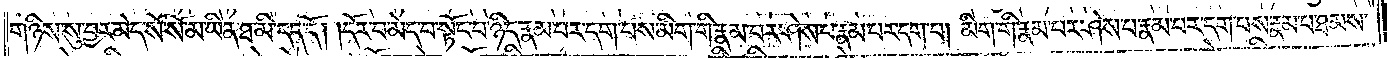གཉིས་སུ་བྱར་མེད་སོ་སོ་མ་ཡིན་ཐ་མི་དད་དོ། །དོར་བ་མེད་པ་སྟོང་པ་ཉིད་རྣམ་པར་དག་པས་མིག་གི་རྣམ་པར་ཤེས་པ་རྣམ་པར་དག་པ། མིག་གི་རྣམ་པར་ཤེས་པ་རྣམ་པར་དག་པས་རྣམ་པ་ཐམས་
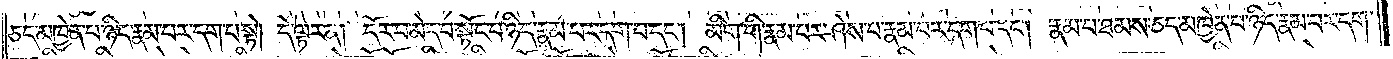ཅད་མཁྱེན་པ་ཉིད་རྣམ་པར་དག་པ་སྟེ། དེ་ལྟར་ན། དོར་བ་མེད་པ་སྟོང་པ་ཉིད་རྣམ་པར་དག་པ་དང༌། མིག་གི་རྣམ་པར་ཤེས་པ་རྣམ་པར་དག་པ་དང༌། རྣམ་པ་ཐམས་ཅད་མཁྱེན་པ་ཉིད་རྣམ་པར་དག་
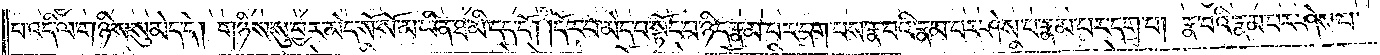པ་འདི་ལ་གཉིས་སུ་མེད་དེ། གཉིས་སུ་བྱར་མེད་སོ་སོ་མ་ཡིན་ཐ་མི་དད་དོ། །དོར་བ་མེད་པ་སྟོང་པ་ཉིད་རྣམ་པར་དག་པས་རྣ་བའི་རྣམ་པར་ཤེས་པ་རྣམ་པར་དག་པ། རྣ་བའི་རྣམ་པར་ཤེས་པ་
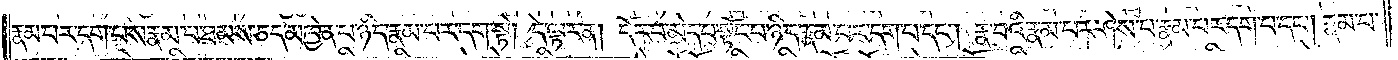རྣམ་པར་དག་པས་རྣམ་པ་ཐམས་ཅད་མཁྱེན་པ་ཉིད་རྣམ་པར་དག་པ་སྟེ། དེ་ལྟར་ན། དོར་བ་མེད་པ་སྟོང་པ་ཉིད་རྣམ་པར་དག་པ་དང༌། རྣ་བའི་རྣམ་པར་ཤེས་པ་རྣམ་པར་དག་པ་དང༌། རྣམ་པ་
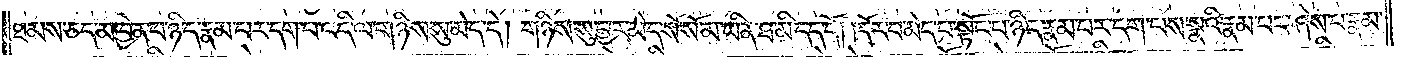ཐམས་ཅད་མཁྱེན་པ་ཉིད་རྣམ་པར་དག་པ་འདི་ལ་གཉིས་སུ་མེད་དེ། གཉིས་སུ་བྱར་མེད་སོ་སོ་མ་ཡིན་ཐ་མི་དད་དོ། །དོར་བ་མེད་པ་སྟོང་པ་ཉིད་རྣམ་པར་དག་པས་སྣའི་རྣམ་པར་ཤེས་པ་རྣམ་
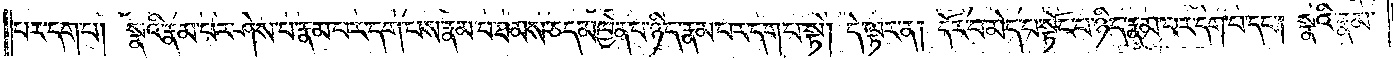པར་དག་པ། སྣའི་རྣམ་པར་ཤེས་པ་རྣམ་པར་དག་པས་རྣམ་པ་ཐམས་ཅད་མཁྱེན་པ་ཉིད་རྣམ་པར་དག་པ་སྟེ། དེ་ལྟར་ན། དོར་བ་མེད་པ་སྟོང་པ་ཉིད་རྣམ་པར་དག་པ་དང༌། སྣའི་རྣམ་
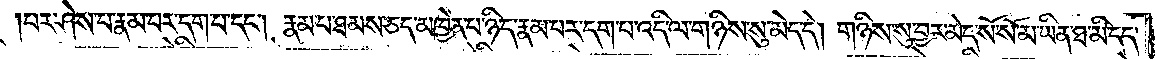པར་ཤེས་པ་རྣམ་པར་དག་པ་དང༌། རྣམ་པ་ཐམས་ཅད་མཁྱེན་པ་ཉིད་རྣམ་པར་དག་པ་འདི་ལ་གཉིས་སུ་མེད་དེ། གཉིས་སུ་བྱར་མེད་སོ་སོ་མ་ཡིན་ཐ་མི་དད་
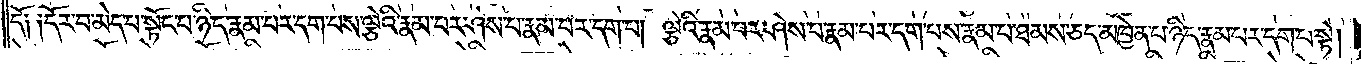དོ༑ ༑དོར་བ་མེད་པ་སྟོང་པ་ཉིད་རྣམ་པར་དག་པས་ལྕེའི་རྣམ་པར་ཤེས་པ་རྣམ་པར་དག་པ། ལྕེའི་རྣམ་པར་ཤེས་པ་རྣམ་པར་དག་པས་རྣམ་པ་ཐམས་ཅད་མཁྱེན་པ་ཉིད་རྣམ་པར་དག་པ་སྟེ།
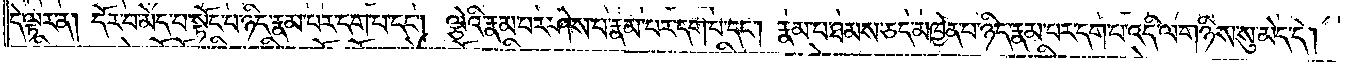དེ་ལྟར་ན། དོར་བ་མེད་པ་སྟོང་པ་ཉིད་རྣམ་པར་དག་པ་དང༌། ལྕེའི་རྣམ་པར་ཤེས་པ་རྣམ་པར་དག་པ་དང༌། རྣམ་པ་ཐམས་ཅད་མཁྱེན་པ་ཉིད་རྣམ་པར་དག་པ་འདི་ལ་གཉིས་སུ་མེད་དེ།
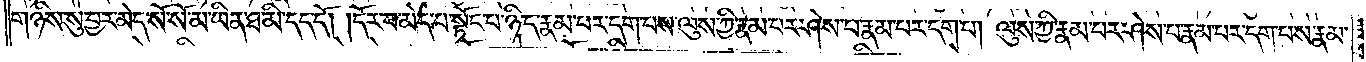གཉིས་སུ་བྱར་མེད་སོ་སོ་མ་ཡིན་ཐ་མི་དད་དོ། །དོར་བ་མེད་པ་སྟོང་པ་ཉིད་རྣམ་པར་དག་པས་ལུས་ཀྱི་རྣམ་པར་ཤེས་པ་རྣམ་པར་དག་པ། ལུས་ཀྱི་རྣམ་པར་ཤེས་པ་རྣམ་པར་དག་པས་རྣམ་
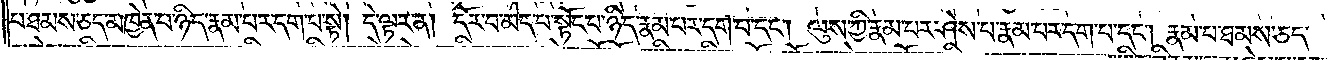པ་ཐམས་ཅད་མཁྱེན་པ་ཉིད་རྣམ་པར་དག་པ་སྟེ། དེ་ལྟར་ན། དོར་བ་མེད་པ་སྟོང་པ་ཉིད་རྣམ་པར་དག་པ་དང༌། ལུས་ཀྱི་རྣམ་པར་ཤེས་པ་རྣམ་པར་དག་པ་དང༌། རྣམ་པ་ཐམས་ཅད་
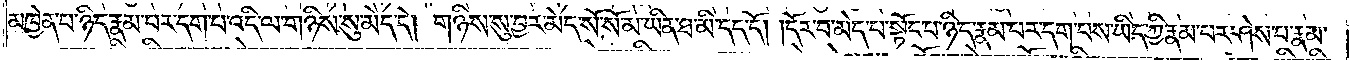མཁྱེན་པ་ཉིད་རྣམ་པར་དག་པ་འདི་ལ་གཉིས་སུ་མེད་དེ། གཉིས་སུ་བྱར་མེད་སོ་སོ་མ་ཡིན་ཐ་མི་དད་དོ། །དོར་བ་མེད་པ་སྟོང་པ་ཉིད་རྣམ་པར་དག་པས་ཡིད་ཀྱི་རྣམ་པར་ཤེས་པ་རྣམ་
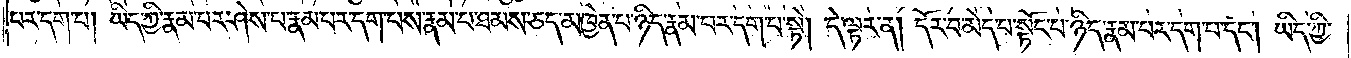པར་དག་པ། ཡིད་ཀྱི་རྣམ་པར་ཤེས་པ་རྣམ་པར་དག་པས་རྣམ་པ་ཐམས་ཅད་མཁྱེན་པ་ཉིད་རྣམ་པར་དག་པ་སྟེ། དེ་ལྟར་ན། དོར་བ་མེད་པ་སྟོང་པ་ཉིད་རྣམ་པར་དག་པ་དང༌། ཡིད་ཀྱི་
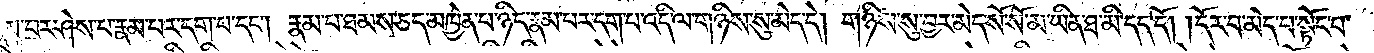རྣམ་པར་ཤེས་པ་རྣམ་པར་དག་པ་དང༌། རྣམ་པ་ཐམས་ཅད་མཁྱེན་པ་ཉིད་རྣམ་པར་དག་པ་འདི་ལ་གཉིས་སུ་མེད་དེ། གཉིས་སུ་བྱར་མེད་སོ་སོ་མ་ཡིན་ཐ་མི་དད་དོ། །དོར་བ་མེད་པ་སྟོང་པ་
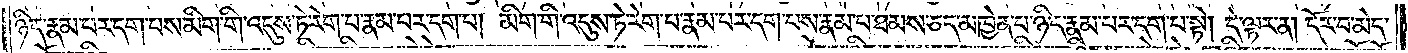ཉིད་རྣམ་པར་དག་པས་མིག་གི་འདུས་ཏེ་རེག་པ་རྣམ་པར་དག་པ། མིག་གི་འདུས་ཏེ་རེག་པ་རྣམ་པར་དག་པས་རྣམ་པ་ཐམས་ཅད་མཁྱེན་པ་ཉིད་རྣམ་པར་དག་པ་སྟེ། དེ་ལྟར་ན། དོར་བ་མེད་
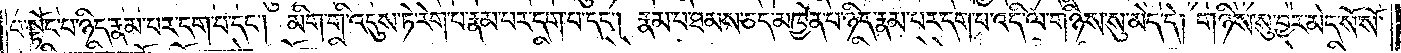པ་སྟོང་པ་ཉིད་རྣམ་པར་དག་པ་དང༌། མིག་གི་འདུས་ཏེ་རེག་པ་རྣམ་པར་དག་པ་དང༌། རྣམ་པ་ཐམས་ཅད་མཁྱེན་པ་ཉིད་རྣམ་པར་དག་པ་འདི་ལ་གཉིས་སུ་མེད་དེ། གཉིས་སུ་བྱར་མེད་སོ་སོ་
